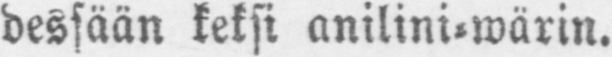dessään keksi anilini-wärin.
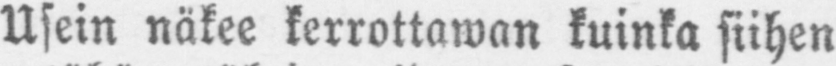Usein näkee kerrottawan kuinka siihen
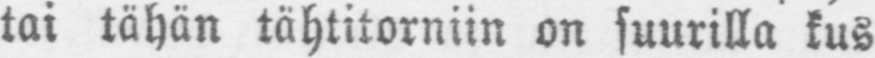tai tähän tähtitorniin on suurilla kus-
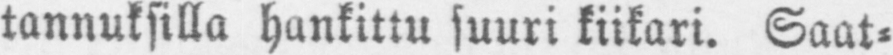tannuksilla hankittu suuri kiikari. Saat-
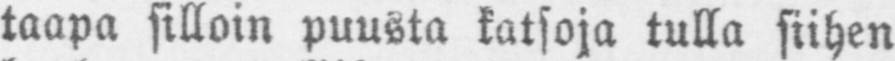taapa silloin puusta katsoja tulla siihen
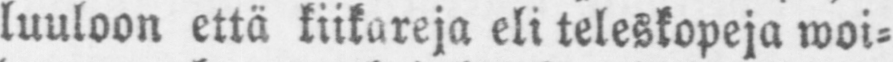luuloon että kiikareja eli teleskopeja woi-
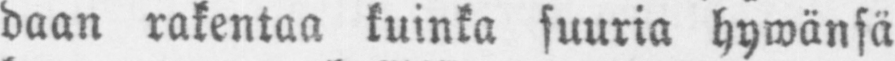daan rakentaa kuinka suuria hywänsä
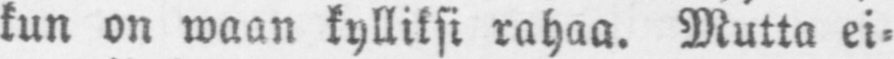kun on waan kylliksi rahaa. Mutta ei-
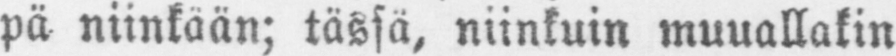pä niinkään; tässä, niinkuin muuallakin
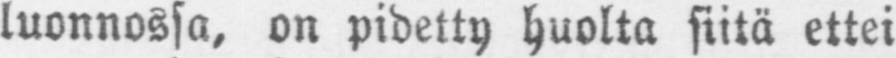luonnossa, on pidetty huolta siitä ettei
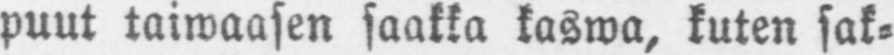puut taiwaasen saakka kaswa, kuten sak-
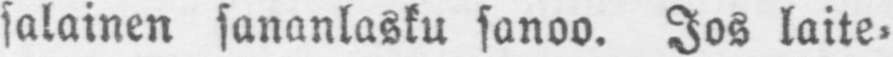salainen sananlasku sanoo. Jos laite-
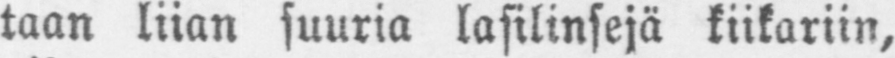taan liian suuria lasilinsejä kiikariin,
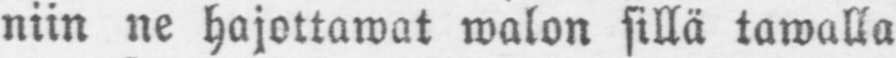niin ne hajottawat walon sillä tawalla
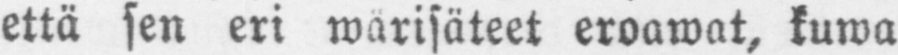että sen eri wärisäteet eroawat, kuwa
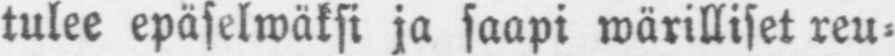tulee epäselwäksi ja saapi wärilliset reu-
